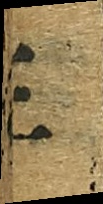三
